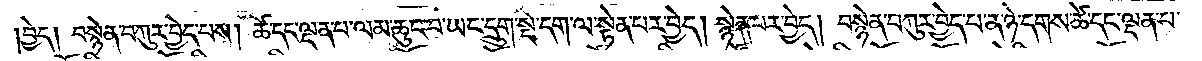བྱེད། བསྙེན་བཀུར་བྱེད་པས། ཚེ་དང་ལྡན་པ་ལམ་ཆུང་བ་ཡང་དྲུག་སྡེ་དག་ལ་སྟེན་པར་བྱེད། སྙེན་པར་བྱེད། བསྙེན་བཀུར་བྱེད་པ་ན་ཉེ་དགས་ཚེ་དང་ལྡན་པ་
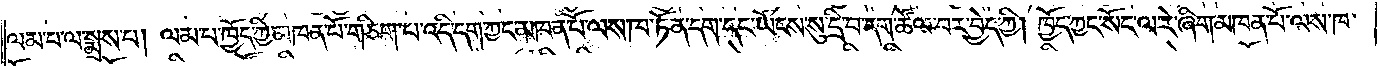ལམ་པ་ལ་སྨྲས་པ། ལམ་པ་ཁྱོད་ཀྱི་མཁན་པོ་གཅིག་པ་འདི་དག་ཀྱང་མཁན་པོ་ལས་ཁ་ཏོན་དག་དང་ཡོངས་སུ་དྲི་བ་དག་ཚོལ་བར་བྱེད་ཀྱི། ཁྱོད་ཀྱང་སོང་ལ་རེ་ཞིག་མཁན་པོ་ལས་ཁ་
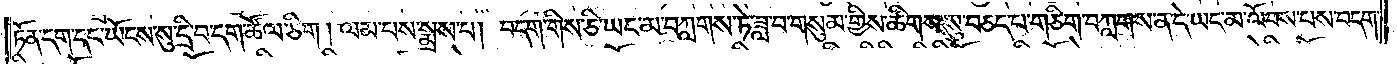ཏོན་དག་དང་ཡོངས་སུ་དྲི་བ་དག་ཚོལ་ཅིག། ལམ་པས་སྨྲས་པ། བདག་གིས་ཅི་ཡང་མ་བཀླགས་ཏེ་ཟླ་བ་གསུམ་གྱིས་ཚིགས་སུ་བཅད་པ་གཅིག་བཀླགས་ན་དེ་ཡང་མ་ལོབས་པས་བདག་
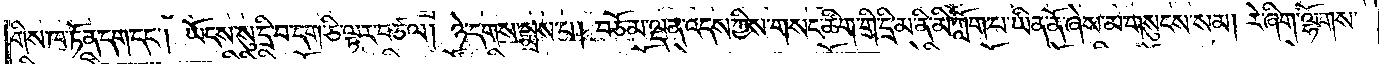གིས་ཁ་ཏོན་དག་དང༌། ཡོངས་སུ་དྲི་བ་དག་ཅི་ལྟར་བཙལ། ཉེ་དགས་སྨྲས་པ། བཅོམ་ལྡན་འདས་ཀྱིས་གསང་ཚིག་གི་དྲི་མ་ནི་མི་ཀློག་པ་ཡིན་ནོ་ཞེས་མ་གསུངས་སམ། རེ་ཞིག་ལྷོགས་
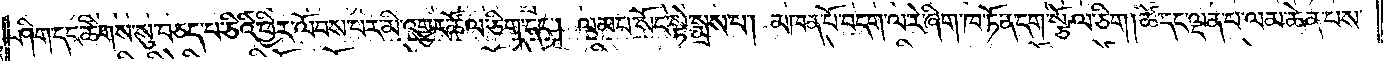ཤིག་དང་ཚིགས་སུ་བཅད་པ་ཅིའི་ཕྱིར་ལོབས་པར་མི་འགྱུར་ཚོལ་ཅིག་དང༌། ལམ་པ་སོང་སྟེ་སྨྲས་པ། མཁན་པོ་བདག་ལ་རེ་ཞིག་ཁ་ཏོན་དག་སྩོལ་ཅིག། ཚེ་དང་ལྡན་པ་ལམ་ཆེན་པས་
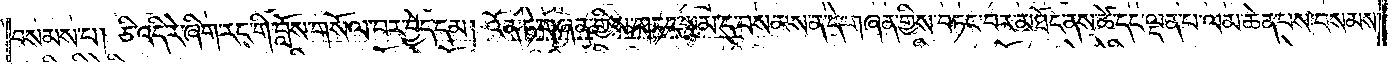བསམས་པ། ཅི་འདི་རེ་ཞིག་རང་གི་བློས་གསོལ་བར་བྱེད་དམ། འོན་ཏེ་གཞན་གྱིས་གཏང་སྙམ་དུ་བསམས་ན་དེ་གཞན་གྱིས་བཏང་བར་མཐོང་ནས་ཚེ་དང་ལྡན་པ་ལམ་ཆེན་པས་བསམས་
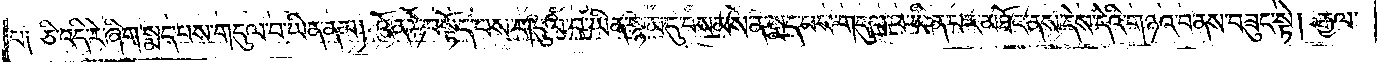པ༑ ཅི་འདི་རེ་ཞིག་སྨད་པས་གདུལ་བ་ཡིན་ནམ། འོན་ཏེ་བསྟོད་པས་གདུལ་བ་ཡིན་སྙམ་དུ་བསམས་ན་སྨད་པས་གདུལ་བ་ཡིན་པར་མཐོང་ནས་དེས་དེའི་གཉའ་བ་ནས་བཟུང་སྟེ། རྒྱལ་
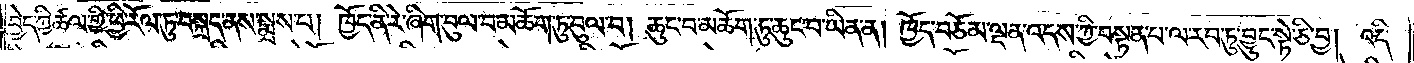བྱེད་ཀྱི་ཚལ་གྱི་ཕྱི་རོལ་ཏུ་བསྐྲད་ནས་སྨྲས་པ། ཁྱོད་ནི་རེ་ཞིག་བུལ་བ་མཆོག་ཏུ་བུལ་བ། ཆུང་བ་མཆོག་ཏུ་ཆུང་བ་ཡིན་ན། ཁྱོད་བཅོམ་ལྡན་འདས་ཀྱི་བསྟན་པ་ལ་རབ་ཏུ་བྱུང་སྟེ་ཅི་བྱ། འདི་
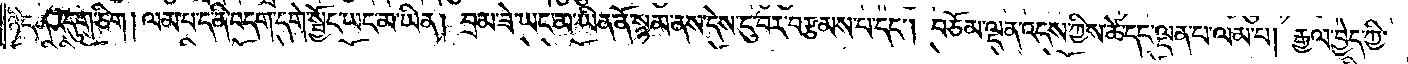ཉིད་ན་འདུག་ཅིག །ལམ་པ་ད་ནི་བདག་དགེ་སྦྱོང་ཡང་མ་ཡིན། བྲམ་ཟེ་ཡང་མ་ཡིན་ནོ་སྙམ་ནས་དེས་ངུ་བར་བརྩམས་པ་དང༌། བཅོམ་ལྡན་འདས་ཀྱིས་ཚེ་དང་ལྡན་པ་ལམ་པ། རྒྱལ་བྱེད་ཀྱི་
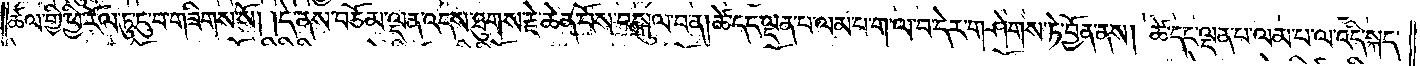ཚལ་གྱི་ཕྱི་རོལ་ཏུ་ངུ་བ་གཟིགས་སོ། །དེ་ནས་བཅོམ་ལྡན་འདས་ཐུགས་རྗེ་ཆེན་པོས་བསྐུལ་བ་ན། ཚེ་དང་ལྡན་པ་ལམ་པ་ག་ལ་བ་དེར་གཤེགས་ཏེ་བྱོན་ནས། ཚེ་དང་ལྡན་པ་ལམ་པ་ལ་འདི་སྐད་
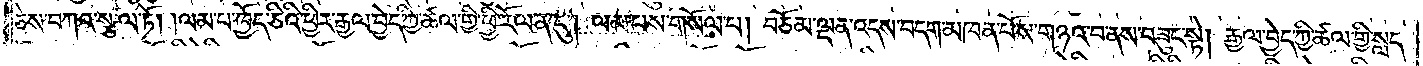ཅེས་བཀའ་སྩལ་ཏོ། །ལམ་པ་ཁྱོད་ཅིའི་ཕྱིར་རྒྱལ་བྱེད་ཀྱི་ཚལ་གྱི་ཕྱི་རོལ་ན་ངུ་། ལམ་པས་གསོལ་པ། བཅོམ་ལྡན་འདས་བདག་མཁན་པོས་གཉའ་བ་ནས་བཟུང་སྟེ། རྒྱལ་བྱེད་ཀྱི་ཚལ་གྱི་སླད་
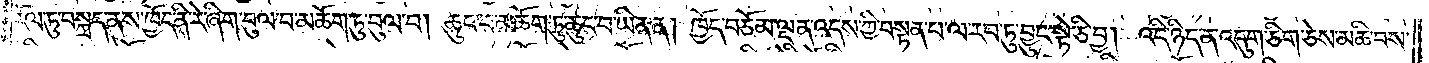རོལ་ཏུ་བསྐྲད་ནས་ཁྱོད་ནི་རེ་ཞིག་བུལ་བ་མཆོག་ཏུ་བུལ་བ། ཆུང་བ་མཆོག་ཏུ་ཆུང་བ་ཡིན་ན། ཁྱོད་བཅོམ་ལྡན་འདས་ཀྱི་བསྟན་པ་ལ་རབ་ཏུ་བྱུང་སྟེ་ཅི་བྱ། འདི་ཉིད་ན་འདུག་ཅིག་ཅེས་མཆི་བས་
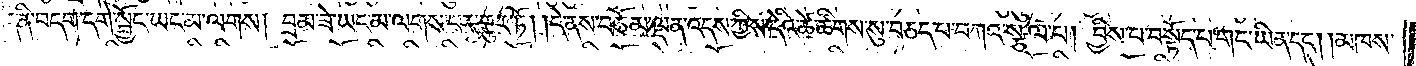ད་ནི་བདག་དགེ་སྦྱོང་ཡང་མ་ལགས། བྲམ་ཟེ་ཡང་མ་ལགས་པར་གྱུར་ཏོ། །དེ་ནས་བཅོམ་ལྡན་འདས་ཀྱིས་དེའི་ཚེ་ཚིགས་སུ་བཅད་པ་བཀའ་སྩལ་པ། བྱིས་པ་བསྟོད་པ་གང་ཡིན་དང༌། །མཁས་
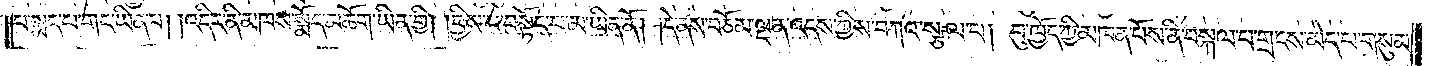པ་སྨད་པ་གང་ཡིན་པ། །འདིར་ནི་མཁས་སྨོད་མཆོག་ཡིན་གྱི། །བྱིས་པ་བསྟོད་པ་མ་ཡིན་ནོ། །དེ་ནས་བཅོམ་ལྡན་འདས་ཀྱིས་བཀའ་སྩལ་པ། བུ་ཁྱོད་ཀྱི་མཁན་པོས་ནི་བསྐལ་པ་གྲངས་མེད་པ་གསུམ་
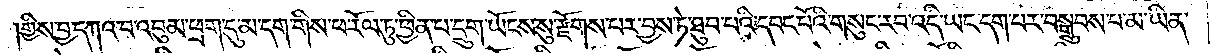གྱིས་བྱ་དཀའ་བ་འབུམ་ཕྲག་དུ་མ་དག་གིས་ཕ་རོལ་ཏུ་ཕྱིན་པ་དྲུག་ཡོངས་སུ་རྫོགས་པར་བྱས་ཏེ་ཐུབ་པའི་དབང་པོའི་གསུང་རབ་འདི་ཡང་དག་པར་བསྒྲུབས་པ་མ་ཡིན་
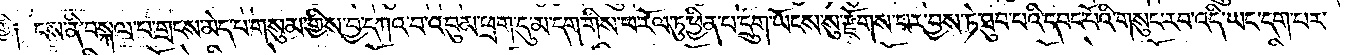གྱི༑ ངས་ནི་བསྐལ་པ་གྲངས་མེད་པ་གསུམ་གྱིས་བྱ་དཀའ་བ་འབུམ་ཕྲག་དུ་མ་དག་གིས་ཕ་རོལ་ཏུ་ཕྱིན་པ་དྲུག་ཡོངས་སུ་རྫོགས་པར་བྱས་ཏེ་ཐུབ་པའི་དབང་པོའི་གསུང་རབ་འདི་ཡང་དག་པར་
